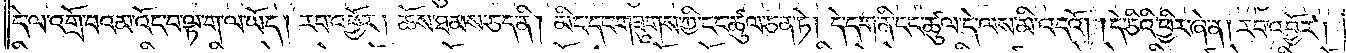དེ་ལ་འགྲོ་བའམ་འོང་བ་ལྟ་ག་ལ་ཡོད། རབ་འབྱོར། ཆོས་ཐམས་ཅད་ནི། མིང་དང་གཟུགས་ཀྱི་ངང་ཚུལ་ཅན་ཏེ། དེ་དག་ནི་ངང་ཚུལ་དེ་ལས་མི་འདའོ། །དེ་ཅིའི་ཕྱིར་ཞེ་ན། རབ་འབྱོར།
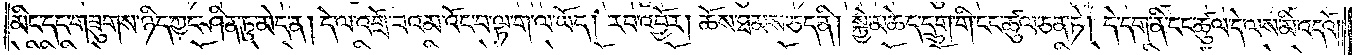མིང་དང་གཟུགས་ཉིད་ཀྱང་ཤིན་ཏུ་མེད་ན། དེ་ལ་འགྲོ་བའམ་འོང་བ་ལྟ་ག་ལ་ཡོད། རབ་འབྱོར། ཆོས་ཐམས་ཅད་ནི། སྐྱེ་མཆེད་དྲུག་གི་ངང་ཚུལ་ཅན་ཏེ། དེ་དག་ནི་ངང་ཚུལ་དེ་ལས་མི་འདའོ།
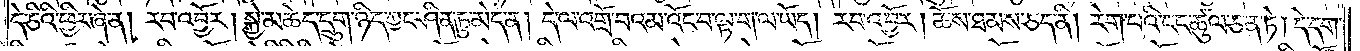དེ་ཅིའི་ཕྱིར་ཞེ་ན། རབ་འབྱོར། སྐྱེ་མཆེད་དྲུག་ཉིད་ཀྱང་ཤིན་ཏུ་མེད་ན། དེ་ལ་འགྲོ་བའམ་འོང་བ་ལྟ་ག་ལ་ཡོད། རབ་འབྱོར། ཆོས་ཐམས་ཅད་ནི། རེག་པའི་ངང་ཚུལ་ཅན་ཏེ། དེ་དག་
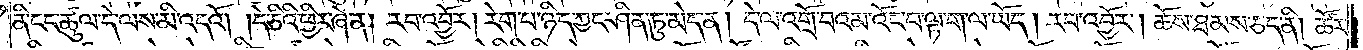ནི་ངང་ཚུལ་དེ་ལས་མི་འདའོ། །དེ་ཅིའི་ཕྱིར་ཞེ་ན། རབ་འབྱོར། རེག་པ་ཉིད་ཀྱང་ཤིན་ཏུ་མེད་ན། དེ་ལ་འགྲོ་བའམ་འོང་བ་ལྟ་ག་ལ་ཡོད། རབ་འབྱོར། ཆོས་ཐམས་ཅད་ནི། ཚོར་
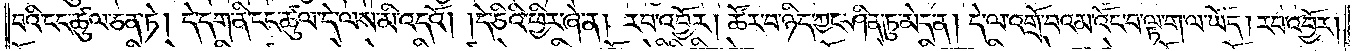བའི་ངང་ཚུལ་ཅན་ཏེ། དེ་དག་ནི་ངང་ཚུལ་དེ་ལས་མི་འདའོ། །དེ་ཅིའི་ཕྱིར་ཞེ་ན། རབ་འབྱོར། ཚོར་བ་ཉིད་ཀྱང་ཤིན་ཏུ་མེད་ན། དེ་ལ་འགྲོ་བའམ་འོང་བ་ལྟ་ག་ལ་ཡོད། རབ་འབྱོར།
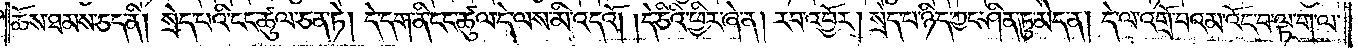ཆོས་ཐམས་ཅད་ནི། སྲེད་པའི་ངང་ཚུལ་ཅན་ཏེ། དེ་དག་ནི་ངང་ཚུལ་དེ་ལས་མི་འདའོ། །དེ་ཅིའི་ཕྱིར་ཞེ་ན། རབ་འབྱོར། སྲེད་པ་ཉིད་ཀྱང་ཤིན་ཏུ་མེད་ན། དེ་ལ་འགྲོ་འོང་བ་ལྟ་ག་ལ་
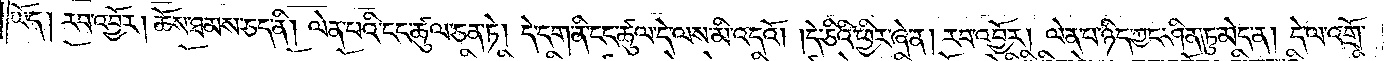ཡོད། རབ་འབྱོར། ཆོས་ཐམས་ཅད་ནི། ལེན་པའི་ངང་ཚུལ་ཅན་ཏེ། དེ་དག་ནི་ངང་ཚུལ་དེ་ལས་མི་འདའོ། །དེ་ཅིའི་ཕྱིར་ཞེ་ན། རབ་འབྱོར། ལེན་པ་ཉིད་ཀྱང་ཤིན་ཏུ་མེད་ན། དེ་ལ་འགྲོ་
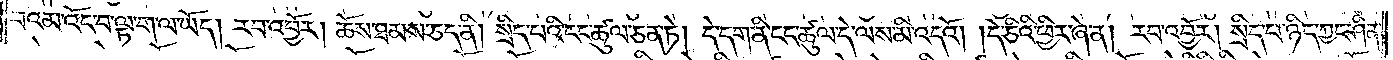བའམ་འོང་བ་ལྟ་ག་ལ་ཡོད། རབ་འབྱོར། ཆོས་ཐམས་ཅད་ནི། སྲིད་པའི་ངང་ཚུལ་ཅན་ཏེ། དེ་དག་ནི་གང་ཚུལ་དེ་ལས་མི་འདའོ། །དེ་ཅིའི་ཕྱིར་ཞེ་ན། རབ་འབྱོར། སྲིད་པ་ཉིད་ཀྱང་ཤིན་
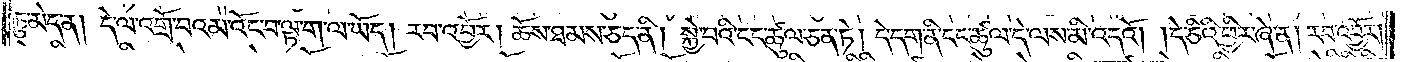ཏུ་མེད་ན། དེ་ལ་འགྲོ་བའམ་འོང་བ་ལྟ་ག་ལ་ཡོད། རབ་འབྱོར། ཆོས་ཐམས་ཅད་ནི། སྐྱེ་བའི་ངང་ཚུལ་ཅན་ཏེ། དེ་དག་ནི་ངང་ཚུལ་དེ་ལས་མི་འདའོ། །དེ་ཅིའི་ཕྱིར་ཞེ་ན། རབ་འབྱོར།
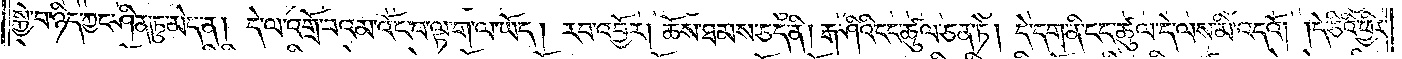སྐྱེ་བ་ཉིད་ཀྱང་ཤིན་ཏུ་མེད་ན། དེ་འགྲོ་བའམ་འོང་བ་ལྟ་ག་ལ་ཡོད། རབ་འབྱོར། ཆོས་ཐམས་ཅད་ནི། རྒ་ཤིའི་ངང་ཚུལ་ཅན་ཏེ། དེ་དག་ནི་ངང་ཚུལ་དེ་ལས་མི་འདའོ། །དེ་ཅིའི་ཕྱིར་
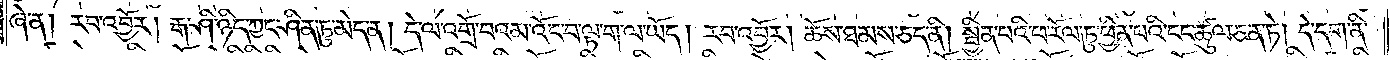ཞེ་ན། རབ་འབྱོར། རྒ་ཤི་ཉིད་ཀྱང་ཤིན་ཏུ་མེད་ན། དེ་ལ་འགྲོ་བའམ་འོང་བ་ལྟ་ག་ལ་ཡོད། རབ་འབྱོར། ཆོས་ཐམས་ཅད་ནི། སྦྱིན་པའི་ཕ་རོལ་ཏུ་ཕྱིན་པའི་ངང་ཚུལ་ཅན་ཏེ། དེ་དག་ནི་
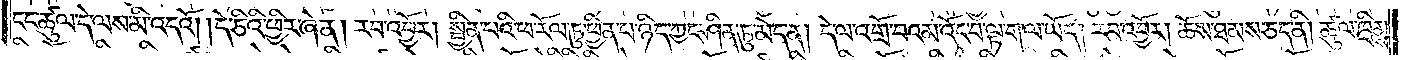ངང་ཚུལ་དེ་ལས་མི་འདའོ། །དེ་ཅིའི་ཕྱིར་ཞེ་ན། རབ་འབྱོར། སྦྱིན་པའི་ཕ་རོལ་ཏུ་ཕྱིན་པ་ཉིད་ཀྱང་ཤིན་ཏུ་མེད་ན། དེ་ལ་འགྲོ་བའམ་འོང་བ་ལྟ་ག་ལ་ཡོད། རབ་འབྱོར། ཆོས་ཐམས་ཅད་ནི། ཚུལ་ཁྲིམས་
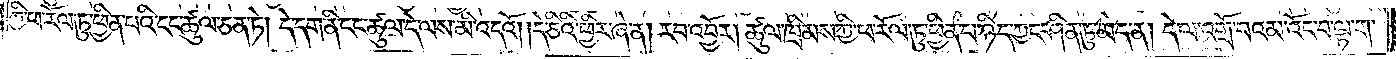ཀྱི་ཕ་རོལ་ཏུ་ཕྱིན་པའི་ངང་ཚུལ་ཅན་ཏེ། དེ་དག་ནི་ངང་ཚུལ་དེ་ལས་མི་འདའོ། །དེ་ཅིའི་ཕྱིར་ཞེ་ན། རབ་འབྱོར། ཚུལ་ཁྲིམས་ཀྱི་ཕ་རོལ་ཏུ་ཕྱིན་པ་ཉིད་ཀྱང་ཤིན་ཏུ་མེད་ན། དེ་ལ་འགྲོ་བའམ་འོང་བ་ལྟ་ག་
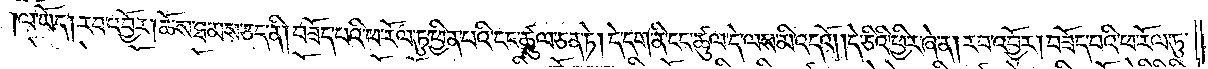ལ་ཡོད། རབ་འབྱོར། ཆོས་ཐམས་ཅད་ནི། བཟོད་པའི་ཕ་རོལ་ཏུ་ཕྱིན་པའི་ངང་ཚུལ་ཅན་ཏེ། དེ་དག་ནི་ངང་ཚུལ་དེ་ལས་མི་འདའོ། །དེ་ཅིའི་ཕྱིར་ཞེ་ན། རབ་འབྱོར། བཟོད་པའི་ཕ་རོལ་ཏུ་
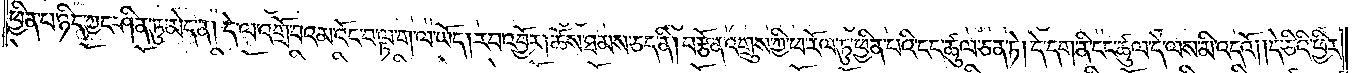ཕྱིན་པ་ཉིད་ཀྱང་ཤིན་ཏུ་མེད་ན། དེ་ལ་འགྲོ་བའམ་འོང་བ་ལྟ་ག་ལ་ཡོད། རབ་འབྱོར། ཆོས་ཐམས་ཅད་ནི། བརྩོན་འགྲུས་ཀྱི་ཕ་རོལ་ཏུ་ཕྱིན་པའི་ངང་ཚུལ་ཅན་ཏེ། དེ་དག་ནི་ངང་ཚུལ་དེ་ལས་མི་འདའོ། །དེ་ཅིའི་ཕྱིར་
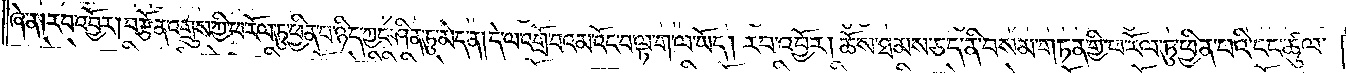ཞེ་ན། རབ་འབྱོར། བརྩོན་འགྲུས་ཀྱི་ཕ་རོལ་ཏུ་ཕྱིན་པ་ཉིད་ཀྱང་ཤིན་ཏུ་མེད་ན། དེ་ལ་འགྲོ་བའམ་འོང་བ་ལྟ་ག་ལ་ཡོད། རབ་འབྱོར། ཆོས་ཐམས་ཅད་ནི་བསམ་གཏན་གྱི་ཕ་རོལ་ཏུ་ཕྱིན་པའི་ངང་ཚུལ་
